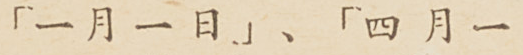「一月一日」、「四月一
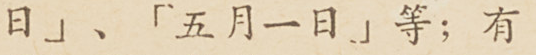日」、「五月一日」等；有
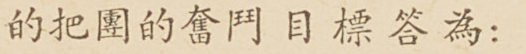的把團的奮鬥目標答為：
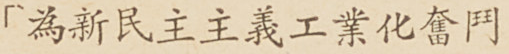「為新民主主義工業化奮鬥
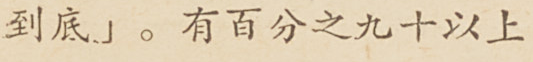到底」。有百分之九十以上
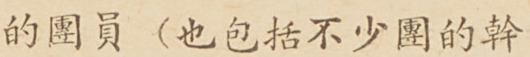的團員（也包括不少團的幹
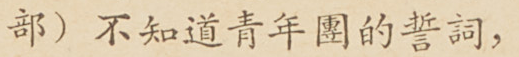部）不知道青年團的誓詞，
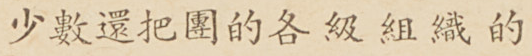少數還把團的各級組織的
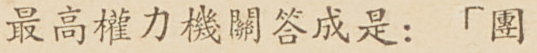最高權力機關答成是：「團
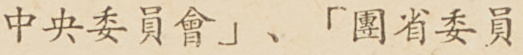中央委員會」、「團省委員
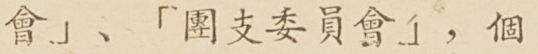會」、「團支委員會」，個
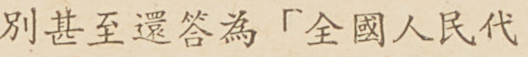別甚至還答為「全國人民代
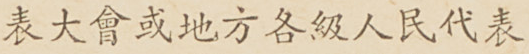表大會或地方各級人民代表
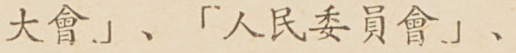大會」、「人民委員會」、
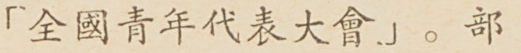「全國青年代表大會」。部
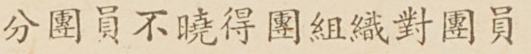分團員不曉得團組織對團員
